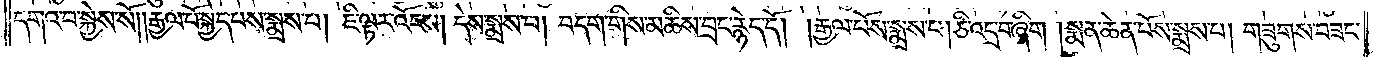དགའ་བ་སྐྱེས་སོ། །རྒྱལ་པོ་སྐྱེད་པས་སྨྲས་པ། ཇི་ལྟར་འོངས། དེས་སྨྲས་པ། བདག་གིས་མཆིས་བྲང་རྙེད་དོ། །རྒྱལ་པོས་སྨྲས་པ། ཅི་འདྲ་བ་ཞིག །སྨན་ཆེན་པོས་སྨྲས་པ། གཟུགས་བཟང་
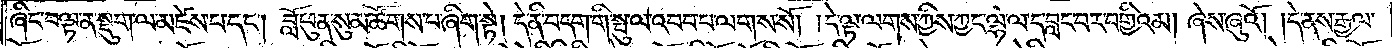ཞིང་བལྟ་ན་སྡུག་ལ་མཛེས་པ་དང༌། བློ་ཕུན་སུམ་ཚོགས་པ་ཞིག་སྟེ། དེ་ནི་བདག་གི་སྤུ་ལ་འབབ་པ་ལགས་སོ། །དེ་ལྟ་ལགས་ཀྱིས་ཀྱང་ལྷ་ལ་ད་བླང་བར་བགྱིའམ། ཞེས་ཞུའོ། །དེ་ནས་རྒྱལ་
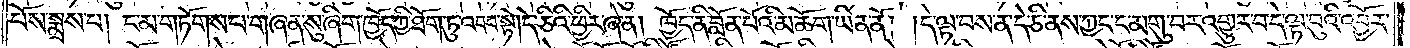པོས་སྨྲས་པ། ང་མ་གཏོགས་པ་གཞན་སུ་ཞིག་ཁྱོད་ཀྱི་ཐོག་ཏུ་འབབ་སྟེ། དེ་ཅིའི་ཕྱིར་ཞེ་ན། ཁྱོད་ནི་བློན་པོའི་མཆོག་ཡིན་ནོ། །དེ་ལྟ་བས་ནས་དེ་ཅི་ནས་ཀྱང་ང་མགུ་བར་འགྱུར་བ་དེ་ལྟ་བུའི་འབྱོར་
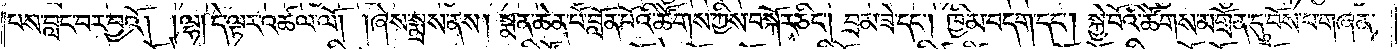བས་བླང་བར་བྱའོ། །ལྷ། དེ་ལྟར་འཚལ་ལོ། །ཞེས་སྨྲས་ནས། སྨན་ཆེན་པོ་བློན་པོའི་ཚོགས་ཀྱིས་བསྐོར་ཅིང༌། བྲམ་ཟེ་དང༌། ཁྱིམ་བདག་དང༌། སྐྱེ་བོའི་ཚོགས་མགྲོན་དུ་བོས་པ་གཞན་
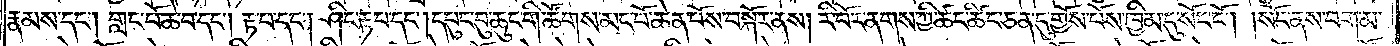རྣམས་དང༌། གླང་པོ་ཆེ་བ་དང༌། རྟ་བ་དང༌། ཤིང་རྟ་བ་དང༌། དཔུང་བུ་ཆུང་གི་ཚོགས་མང་པོ་ཆེན་པོས་བསྐོར་ནས། རི་བོར་ནགས་ཀྱི་ཚང་ཚིང་ཅན་དུ་གྱོས་པོས་ཁྱིམ་དུ་སོང་ངོ༌། །སོང་ནས་བག་མ་
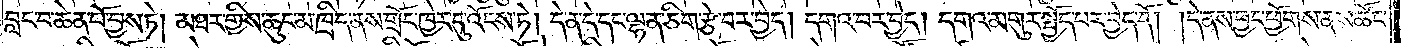བླང་བ་ཆེན་པོ་བྱས་ཏེ། མཐར་གྱིས་ཆུང་མ་ཁྲིད་ནས་གྲོང་ཁྱེར་དུ་འོངས་ཏེ། དེ་ན་དེ་དང་ལྷན་ཅིག་རྩེ་བར་བྱེད། དགའ་བར་བྱེད། དགའ་མགུར་སྤྱོད་པར་བྱེད་དོ། །དེ་ནས་བྱང་ཕྱོགས་ནས་ཚོང་
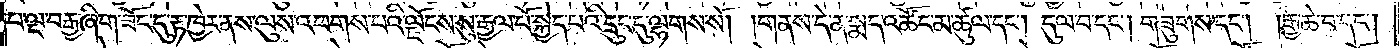པ་ལྔ་བརྒྱ་ཞིག་ཟོང་དུ་རྟ་ཁྱེར་ནས་ལུས་འཕགས་པའི་ལྗོངས་སུ་རྒྱལ་པོ་སྐྱེད་པའི་དྲུང་དུ་ལྷགས་སོ། །གནས་དེ་ན་སྨད་འཚོང་མ་ཚུལ་དང༌། དུལ་བ་དང༌། གཟུགས་དང༌། རྒྱ་ཆེ་བ་དང༌།
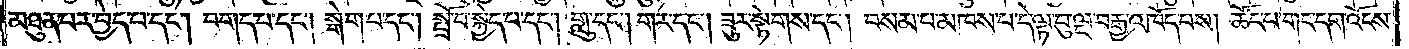མཐུན་པར་བྱེད་པ་དང༌། བགད་པ་དང༌། སྒེག་པ་དང༌། སྤྲོ་བ་སྐྱེད་པ་དང༌། གླུ་དང༌། གར་དང༌། ཟུར་སྟེགས་དང༌། བསམ་པ་མཁས་པ་དེ་བལྟ་བུར་ལྔ་བརྒྱ་འཁོད་པས། ཚོང་པ་གང་དག་འོངས་
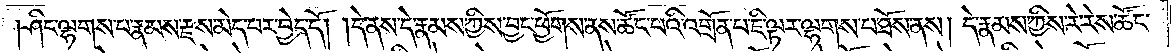ཤིང་ལྷགས་པ་རྣམས་རྫས་མེད་པར་བྱེད་དོ། །དེ་ནས་དེ་རྣམས་ཀྱིས་བྱང་ཕྱོགས་ནས་ཚོང་བའི་འགྲོན་པ་ཇི་ལྟར་ལྷགས་པ་ཐོས་ནས། དེ་རྣམས་ཀྱིས་རེ་རེས་ཚོང་
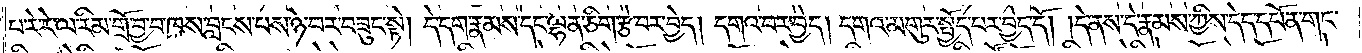པ་རེ་རེ་ལ་རིམ་གྲོ་བྱ་བ་ཁས་བླངས་པས་ཉེ་བར་བཟུང་སྟེ། དེ་དག་རྣམས་དང་ལྷན་ཅིག་རྩེ་བར་བྱེད། དགའ་བར་བྱེད། དགའ་མགུར་སྤྱོད་པར་བྱེད་དོ། །དེ་ནས་དེ་རྣམས་ཀྱིས་དེད་དཔོན་གང་
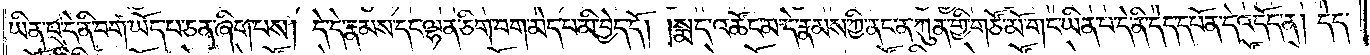ཡིན་པ་དེ་ནི་བག་ཡོད་པ་ཅན་ཞིག་པས། དེ་དེ་རྣམས་དང་ལྷན་ཅིག་བག་མེད་པ་མི་བྱེད་དོ། །སྨད་འཚོང་མ་དེ་རྣམས་ཀྱི་ནང་ན་ཀུན་གྱི་གཙོ་མོ་གང་ཡིན་པ་དེ་ནི་དེད་དཔོན་དེ་འདོད་ན། དེད་
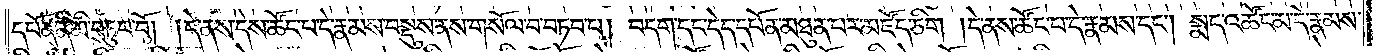དཔོན་ནི་མི་བཏུབ་བོ། །དེ་ནས་དེས་ཚོང་བ་དེ་རྣམས་བསྡུས་ནས་གསོལ་བ་བཏབ་པ། བདག་དང་དེད་དཔོན་མཐུན་པར་མཛོད་ཅིག །དེ་ནས་ཚོང་བ་དེ་རྣམས་དང༌། སྨད་འཚོང་མ་དེ་རྣམས་
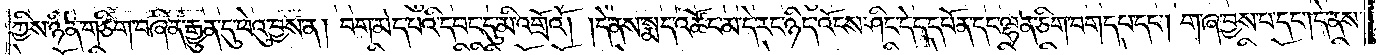ཀྱིས་ཉིན་གཅིག་བཞིན་རྒྱུན་དུ་ཕེའུ་བྱས་ན། བག་མེད་པའི་དབང་དུ་མི་འགྲོའོ། །དེ་ནས་སྨད་འཚོང་མ་དེ་རང་ཉིད་འོངས་ཤིང་དེད་དཔོན་དང་ལྷན་ཅིག་བགད་པ་དང༌། ག་ཞ་བྱས་པ་དང༌། དེ་ནས་
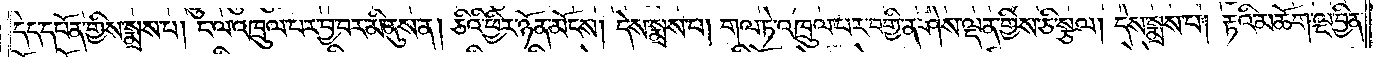དེད་དཔོན་གྱིས་སྨྲས་པ། ང་ལ་འཁྲུལ་པར་བྱ་བར་མི་ནུས་ན། ཅིའི་ཕྱིར་ཉོན་མོངས། དེས་སྨྲས་པ། གལ་ཏེ་འཁྲུལ་པར་བགྱི་ན་ཤེས་ལྡན་གྱིས་ཅི་སྩལ། དེས་སྨྲས་པ། རྟའི་མཆོག་ལྔ་བྱིན་
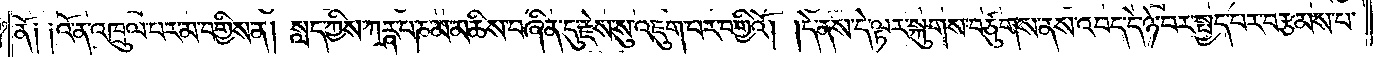ནོ༑ ༑འོ་ན་འཁྲུལ་པར་མ་བགྱིས་ན། སླད་ཀྱིས་ཀཪྴ་པ་ཎ་མ་མཆིས་བཞིན་དུ་རྗེས་སུ་འཇུག་པར་བགྱིའོ། །དེ་ནས་དེ་ལྟར་སྐུགས་བཙུགས་ནས་འབད་དེ་ཉེ་བར་སྤྱད་པར་བརྩམས་པ་
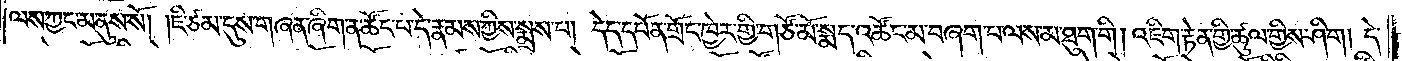ལས་ཀྱང་མ་ནུས་སོ། །ཇི་ཙམ་དུས་གཞན་ཞིག་ན་ཚོང་པ་དེ་རྣམས་ཀྱིས་སྨྲས་པ། དེད་དཔོན་གྲོང་ཁྱེར་གྱི་གཙོ་མོ་སྨད་འཚོང་མ་བཞག་པ་ལས་མ་ཐུག་གི། འཇིག་རྟེན་གྱི་ཚུལ་གྱིས་ཤིག། དེ་
